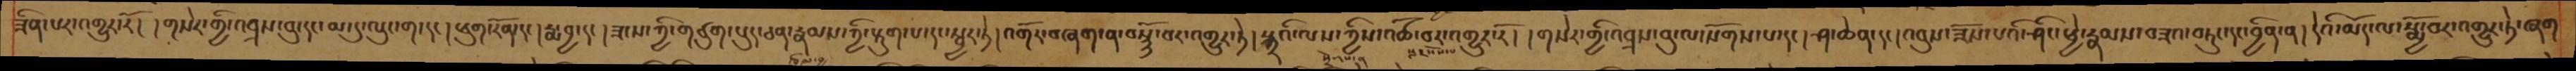ཟིན་པར་འགྱུར་རོ། །གསེར་གྱི་འབྲས་བུ་དང་མ་དུ་ལུང་ག་དང། ཕུག་རོན་དང། རྨ་བྱ་དང། ཟངས་ཀྱི་གཙུག་ཕུད་ཅན་རྣམས་ཀྱི་སྟུག་པ་དང་སྦྱར་ཏེ། འགོར་བཞག་ན་བསྙོ་བར་འགྱུར་ཏེ། སྐྲའི་ལས་ཀྱིས་འཚོ་བར་འགྱུར་རོ། །གསེར་གྱི་འབྲས་བུ་ལ་སོགས་པ་དང། ཤ་ཆེན་དང། འབུས་ཟོས་པའི་ཤིང་ཕྱེ་རྣམས་བཟའ་བཏུང་དང་བྱིན་ན། དེའི་མོད་ལ་སྨྱོ་བར་འགྱུར་ཏེ་ཞག
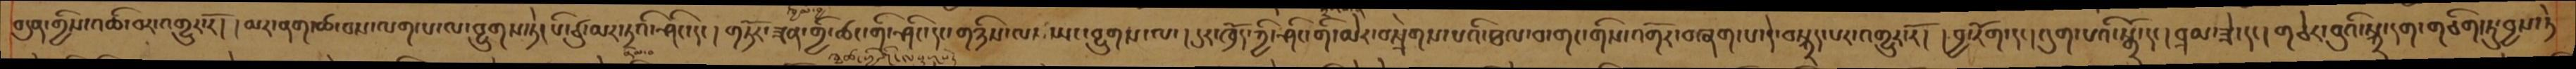བདུན་གྱིས་འཆི་བར་འགྱུར་རོ། །མར་ནག་ཚ་བས་ལག་པ་ལ་བྱུགས་ཏེ། པི་ཙུ་མར་ཏའི་ཤིང་དང ། གཏོར་ཟན་གྱི་ཚང་གི་ཤིང་དང་གཉིས་ལས་ཡང་བྱུགས་ལ་། དུར་ཁྲོད་ཀྱི་ཤིང་གི་མེར་བསྲེགས་པའི་ཐལ་བ་གང་གིས་འགོར་བཞག་པ་དེ་བསྐྲད་པར་འགྱུར་རོ། །བྱ་རོག་དང། འུག་པའི་སྒོ་དང། བྲམ་ཟེ་དང། གཅེར་བུའི་སྐྲ་དག་གཅིག་ཏུ་བྱས་ཏེ
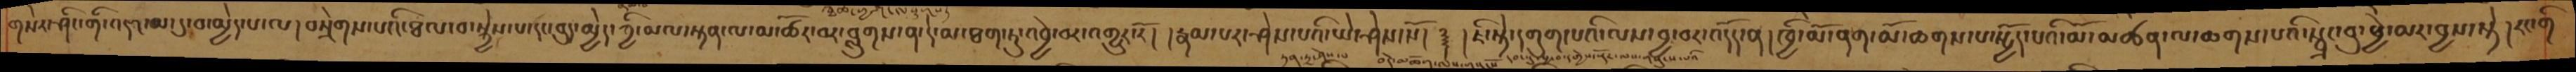གསེར་ཤིང་གི་འདབ་མ་དུ་བ་མྱེད་པ་ལ། བསྲེགས་པའི་ཐལ་བ་སྐྱེས་པ་དང་བུད་མྱེད་ཀྱི་མལ་སྟན་ལ་ཚོར་བར་བླུགས་ན་དེ་མ་ཐག་ཏུ་འབྱེ་བར་འགྱུར་རོ། །རྣམ་པར་ཤེས་པའི་ཡེ་ཤེས་སོ། ༈ །ཇི་སྟེ་དགུག་པའི་ལས་བྱ་བར་འདོད་ན། ཁྱི་མོ་ནག་མོ་ཆགས་པ་སྤྱོད་པའི་མོ་མཚན་ལ་ཆགས་པའི་སྦྲང་བུ་ཕྱེ་མར་བྱས་སྟེ། རང་གི
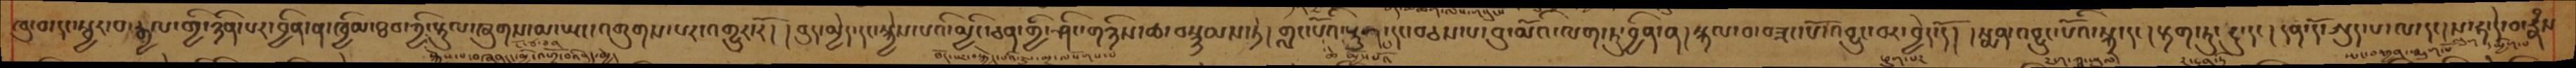ཁུ་བ་དང་སྦྱར་བ་རྒྱལ་གྱི་ཉིན་པར་བྱིན་ན་ཁྱིམ་ཐབ་ཀྱི་རྟུལ་ཞུགས་མ་ཡང་འགུགས་པར་འགྱུར་རོ། །བུད་མྱེད་དང་སྐྱེས་པའི་མྱིང་ཅན་གྱི་ཤིང་གཉིས་ཆ་བསྙམས་ཏེ། གླང་པོའི་སྡུག་པ་དང་བཅས་པ་བུ་མོའི་ལག་ཏུ་བྱིན་ན། སྐལ་བ་བཟང་པོ་འབྱུང་བར་བྱེད་དོ། །སྨན་འབྱུང་པོའི་སྐྲ་དང་།རྟག་ཏུ་ངུ་དང། །ན་རོ་ཨུད་པ་ལ་དང། ས་ཧ་དེ་བ་རྣཾས
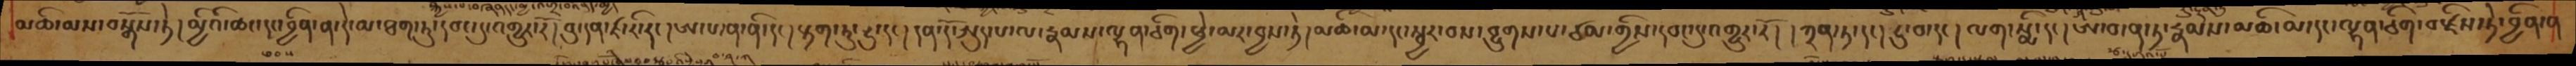མཆི་མས་བསྒོས་ཏེ། མྱིའི་ཆང་དང་བྱིན་ན་དེ་མ་ཐག་ཏུ་དབང་དུ་འགྱུར་རོ། བུ་དན་ཛ་རི་དང། ཨ་པ་ན་ནི་དང། རྟག་ཏུ་ངུ་དང། དན་རོ་ཨུད་པ་ལ་རྣམས་ལྷན་ཅིག་ཕྱེ་མར་བྱས་ཏེ། མཆི་མ་དང་སྦྱར་བས་བྱུགས་པ་ཙམ་གྱིས་དབང་དུ་འགྱུར་རོ། །ཀྲན་ཏ་དང་། ཧུ་བ་དང། ལག་སྨི་དང། ཨ་བ་ན་ཏ་རྣམས་མཆི་མ་དང་ལྷན་ཅིག་བརྫིས་ཏེ་བྱིན་ན
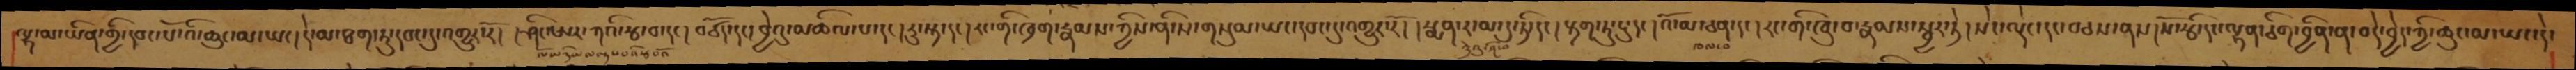ལྷ་མ་ཡིན་གྱི་དབང་པོ་འི་ཆུང་མ་ཡང། དེ་མ་ཐག་ཏུ་དབང་དུ་འགྱུར་རོ། །ཤིང་ཨར་ཀའི་རྩ་བ་དང། བཙོད་དང་བྱེའུ་མཆིལ་པ་དང། རུ་རྟ་དང། རང་གི་ཁྲག་རྣམས་ཀྱིས་ནི་ས་གསུམ་ཡང་དབང་དུ་འགྱུར་རོ། །སྨན་ར་མ་དུ་ཏི་དང། རྟག་ཏུ་ངུ་དང། འོ་མ་ཅན་དང། རང་གི་ཁུ་བ་རྣམས་སྦྱར་ཏེ། སེང་ལྡེང་དང་བཅས་ནས། སོ་རྩི་དང་ལྷན་ཅིག་བྱིན་ན་བདེ་བྱེད་ཀྱི་ཆུང་མ་ཡང་དེ་
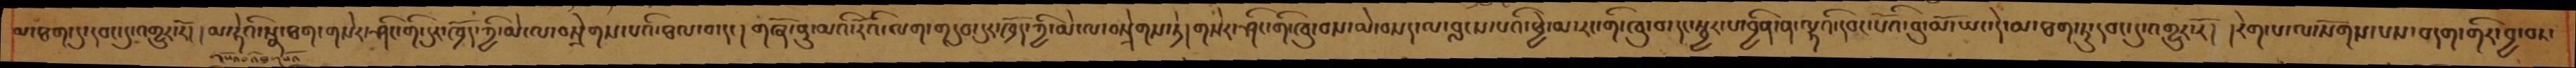མ་ཐག་དུ་དབང་དུ་འགྱུར་རོ། །མ་ཧེའི་སྣ་ཐག་གསེར་ཤིང་གི་དུར་ཁྲོད་ཀྱི་མེ་ལ་བསྲེགས་པའི་ཐལ་བ་དང། གཞོ་ནུ་མའི་རོའི་ལག་གདུབ་དུར་ཁྲོད་ཀྱི་མེ་ལ་བསྲེགས་ཏེ། གསེར་ཤིང་གི་ཁུ་བས་མེ་བསད་ལ་བླངས་པའི་ཕྱེ་མ་རང་གི་ཁུ་བ་དང་སྦྱར་པ་བྱིན་ན་ལྷའི་དབང་པོའི་བུ་མོ་ཡང་དེ་མ་ཐག་ཏུ་དབང་དུ་འགྱུར་རོ། །རེག་པ་ལ་སོགས་པས་བདག་གིར་བྱ་བར་
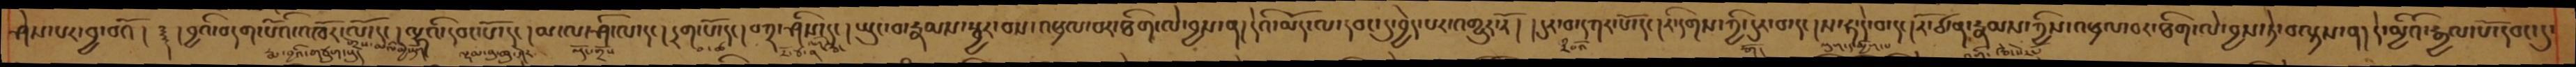ཤེས་པར་བྱ་བའོ།  ༈ །བྱའི་བདག་པོའི་འཁོར་ལོ་དང། ལྷའི་དབང་པོ་དང། །མ་ལ་ཤི་ལ་དང། དྲག་པོ་དང། བཀྲ་ཤིས་དང། སྤུང་བ་རྣམས་སྦྱར་བས་འཕྲལ་བར་ཐིག་ལེ་བྱས་ན། དེའི་མོད་ལ་དབང་དུ་བྱེད་པར་འགྱུར་རོ། །དུར་བ་དཀར་པོ་དང། རི་དགས་ཀྱི་དུར་བ་དང། ས་ཧ་དེ་བ་དང། རོ་ཙ་ན་རྣམས་ཀྱིས་འཕྲལ་བར་ཐིག་ལེ་བྱས་ཏེ་བལྟས་ན། དེ་མྱིའི་རྒྱལ་པོ་དབང་དུ་
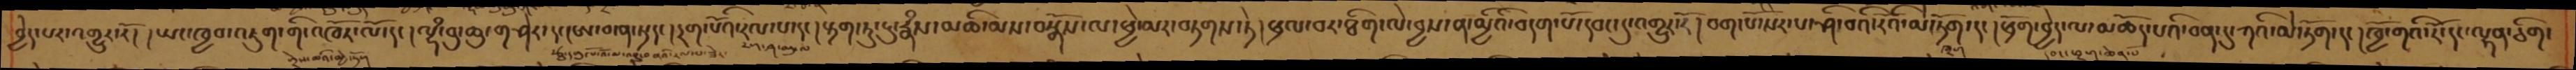བྱེད་པར་འགྱུར་རོ། །ཡང་ཁྱབ་འཇུག་གི་འཁོར་ལོ་དང། ལྷཾ་བུ་ཆུ་གཤེར་དང།ཨ་བ་ན་ཏ་དང།དྲག་པོའི་རལ་པ་དང།རྟག་ཏུ་ངུ་རྣཾས་མཆི་མས་བསྒོས་ལ་ཕྱེ་མར་བཏགས་ཏེ། ཕྲལ་བར་ཐིག་ལེ་བྱས་ན་མྱིའི་བདག་པོ་དབང་དུ་འགྱུར་རོ། བག་སོ་སོར་པ་ཤི་བའི་རོའི་མེ་ཏོག་དང། ཕྲོག་བྱེད་ལ་མཆོད་པའི་བན་དུ་ཀའི་མེ་ཏོག་དང། ཁྱོ་གའི་རོ་དང་ལྷན་ཅིག་
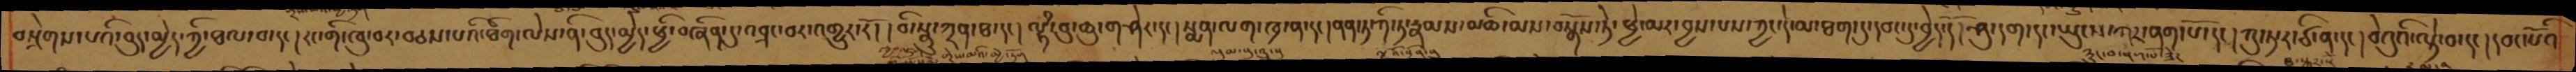བསྲེགས་པའི་བུད་མྱེད་ཀྱི་ཐལ་བ་དང། རང་གི་ཁུ་བར་བཅས་པའི་ཐིག་ལེས་ནི་བུད་མྱེད་ཕྱི་བཞིན་དུ་འབྲང་བར་འགྱུར་རོ། །བི་སྣུ་ཀྲན་ཋ་དང། ལྷཾ་བུ་ཆུ་གཤེར་དང། སྨན་ལག་ཁྲ་ན་དང། ནན་ཏ་ཀི་ཏ་རྣམས་མཆི་མས་བསྒོས་ཏེ་ཕྱེ་མར་བྱས་པས་ཀྱང་དེ་མ་ཐག་དུ་དབང་དུ་བྱེད་དོ། ཤུ་དག་དང་ཡུངས་དཀར་ནག་པོ་དང། ཀུ་ཏ་ར་ཙི་ན་དང། བེའུའི་ལྟེ་བ་དང། དབང་པོའི
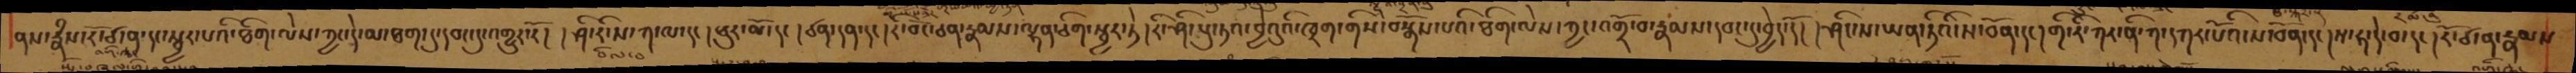ནས་རྣཾས་རོ་ཙ་ན་དང་སྦྱར་པའི་ཐིག་ལེས་ཀྱང་དེ་མ་ཐག་དུ་དབང་དུ་འགྱུར་རོ། །ཤི་རི་ས་ཀ་ལ་དང། ཕུར་མོ་དང། ཙན་དན་དང། རི་བོང་ཅན་རྣམས་ལྷན་ཅིག་སྦྱར་ཏེ། རི་ཤི་སུ་ཏའ་བྱེའུའི་ཁྲག་གིས་བསྒོས་པའི་ཐིག་ལེས་ཀྱང་འགྲོ་བ་རྣམས་དབང་དུ་བྱེད་དོ། །ཤིང་ས་ཡན་ཏིའི་ས་བོན་དང། གི་རི་ཀར་ནི་ཀ་དཀར་པོའི་ས་བོན་དང། ས་ཧ་དེ་བ་དང། རོ་ཙ་ན་རྣམས
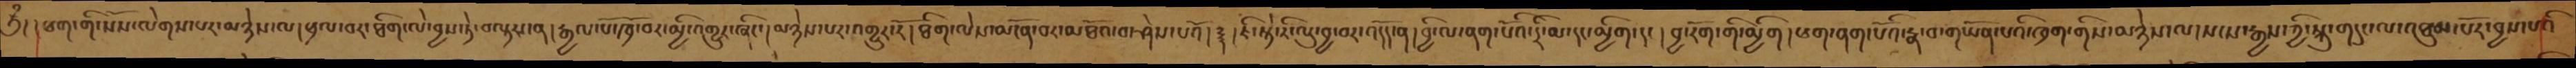༄ྃ། །ཕག་གི་སོས་ལེགས་པར་མཉེས་ལ། ཕྲལ་བར་ཐིག་ལེ་བྱས་ཏེ་བལྟས་ན།རྒྱལ་པོ་ཁྲོ་བར་མྱི་འགྱུར་ཞིང་། མཉེས་པར་འགྱུར་རོ། ཐིག་ལེས་མངོན་བར་མཐོའ་བ་ཤེས་པའོ། ༈ །ཇི་སྟེ་རི་ལུ་བྱ་བར་འདོད་ན། བྱི་ལ་ནག་པོའི་དྲི་མ་དང་མྱིག་དང ། བྱ་རོག་གི་མྱིག། ཕག་ནག་པོའི་རྣ་བ་གཡོན་པའི་ཁྲག་གིས་མཉེས་ལ་སངས་རྒྱས་ཀྱི་སྐུ་གདུང་ལ་འཐུམ་པོར་བྱས་པའི
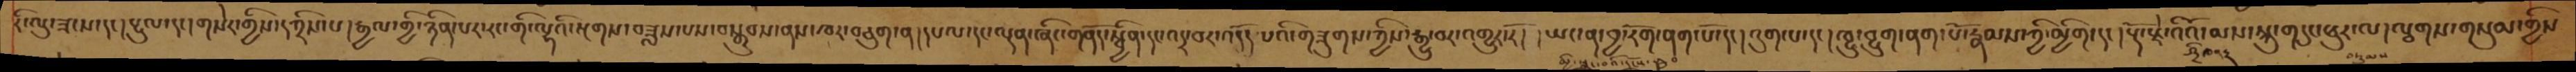རི་ལུ་ཟངས་དང། རྔུལ་དང། གསེར་གྱིས་དཀྲིས་པ། རྒྱལ་གྱི་ཉིན་པར་རང་གི་ལྷའི་སྔགས་བཟླས་པས་བསྒྲུབས་ནས་ཁར་བཅུག་ན། དཔལ་དང་ལྡན་ཞིང་གནོད་སྦྱིན་དང་འདྲ་བར་འདོད་པའི་གཟུགས་ཀྱིས་རྒྱུ་བར་འགྱུར་རོ། །ཡང་ན་བྱ་རོག་ནག་པོ་དང། འུག་པ་དང།ཁུ་བྱུག་ནག་པོ་རྣམས་ཀྱི་མྱིག་དང། རྡོ་རྗེའིའོ་མས་སྐུ་གདུང་ཕུར་ལ། ལྕགས་གསུམ་གྱིས
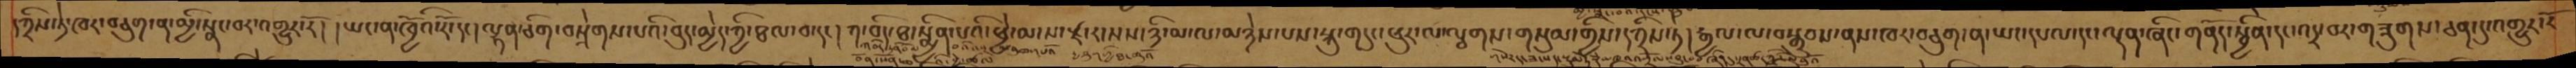དཀྲིས་ཏེ་ཁར་བཅུག་ན་མྱི་སྣང་བར་འགྱུར་རོ། །ཡང་ན་ཁྱོའི་རོ་དང། ལྷན་ཅིག་བསྲེགས་པའི་བུད་མྱེད་ཀྱི་ཐལ་བ་དང། ཀ་བིད་ཐ་སྨྱིན་པའི་ཕྱེ་མ་ས་རྫ་ར་སས་ཉི་མ་ལ་མཉེས་པས་སྐུ་གདུང་ཕུར་ལ་ལྕགས་གསུམ་གྱིས་དཀྲིས་ཏེ། རྒྱལ་ལ་བསྒྲུབས་ནས་ཁར་བཅུག་ན་ཡང་དཔལ་དང་ལྡན་ཞིང་གནོད་སྦྱིན་དང་འདྲ་བར་གཟུགས་ཅན་དུ་འགྱུར་རོ
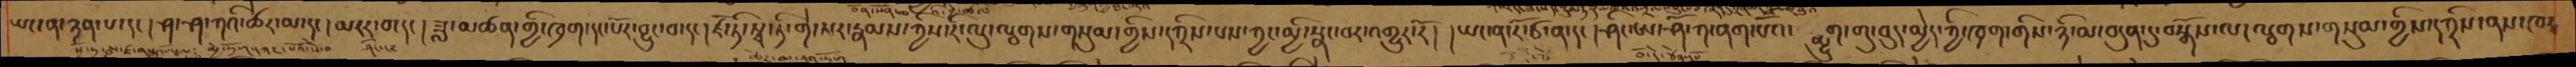ཡང་ན་ཉན་པ་དང། ཤ་ཤ་ཀའི་ཚེར་མ་དང། མངར་བ་དང། ཟླ་མཚན་གྱི་ཁྲག་དང་པོར་བྱུང་བ་དང། ཛོ་ཏི་སྭ་ཏི་གེ་སར་རྣམས་ཀྱིས་རི་ལུ་ལྕགས་གསུམ་གྱིས་དཀྲིས་པས་ཀྱང་མྱི་སྣང་བར་འགྱུར་རོ། །ཡང་ན་རོ་ཙ་ན་དང། ཤིང་ཨ་ཤོ་ཀ་ནག་པོ་དང། སྨྱུག་གུ་བུད་མྱེད་ཀྱི་ཁྲག་གིས་ཉི་མ་བདུན་དུ་བསྒོས་ལ། ལྕགས་གསུམ་གྱིས་དཀྲིས་ནས་ཁར
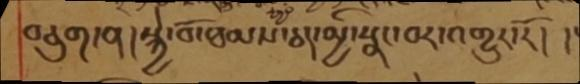བཅུག་ན། སྐྱེ་བོ་ཐམས་ཅད་མྱི་སྣང་བར་འགྱུར་རོ། །
